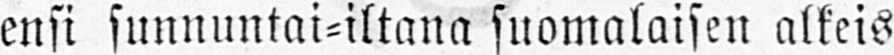ensi sunnuntai-iltana suomalaisen alkeis-
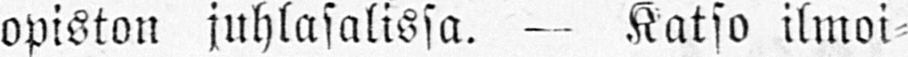opiston juhlasalissa. — Katso ilmoi-
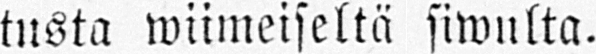tusta wiimeiseltä siwulta.
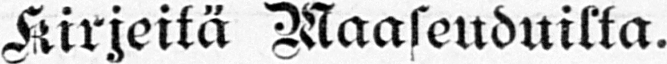Kirjeitä Maaseuduilta.
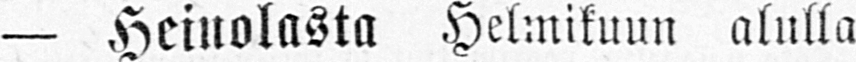— Heinolasta Helmikuun alulla
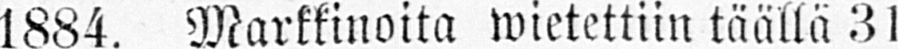1884. Markkinoita wietettiin täällä 31
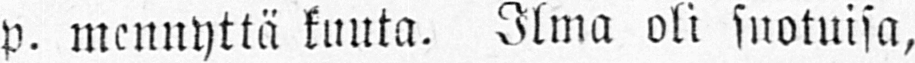p. mennyttä kuuta. Ilma oli suotuisa,
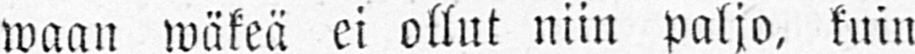waan wäkeä ei ollut niin paljo, kuin
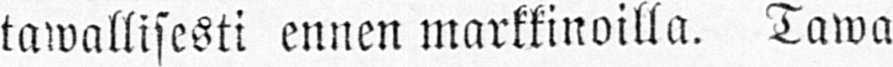tawallisesti ennen markkinoilla. Tawa-
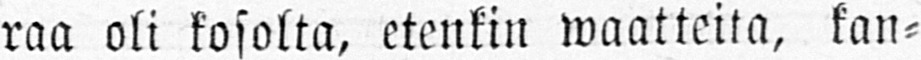raa oli kosolta, etenkin waatteita, kan-
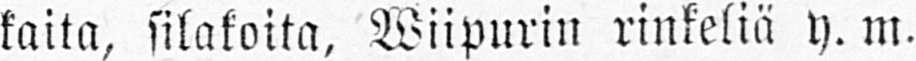kaita, silakoita, Wiipurin rinkeliä y. m.
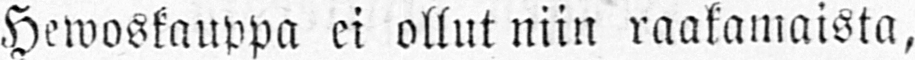Hewoskauppa ei ollut niin raakamaista,
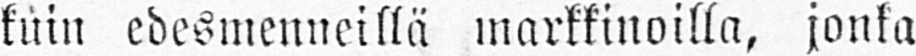kuin edesmenneillä markkinoilla, jonka
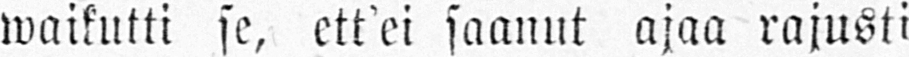waikutti se, ett'ei saanut ajaa rajusti
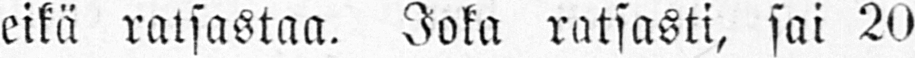eikä ratsastaa. Joka ratsasti, sai 20
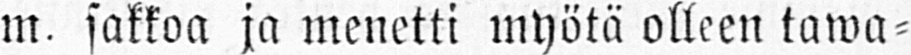m. sakkoa ja menetti myötä olleen tawa-
